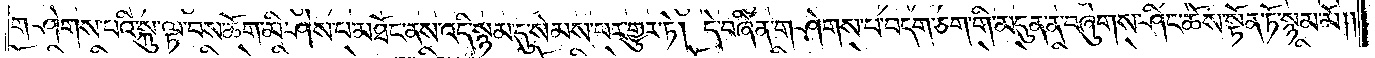གཤེགས་པའི་སྐུ་ལྟ་བས་ཆོག་མི་ཤེས་པ་མཐོང་ནས་འདི་སྙམ་དུ་སེམས་པར་གྱུར་ཏེ། དེ་བཞིན་གཤེགས་པ་བདག་ཅག་གི་མདུན་ན་བཞུགས་ཤིང་ཆོས་སྟོན་ཏོ་སྙམ་མོ༎
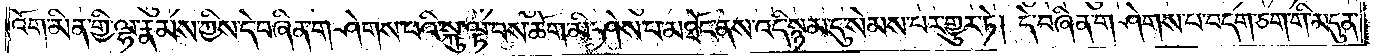འོག་མིན་གྱི་ལྷ་རྣམས་ཀྱིས་དེ་བཞིན་གཤེགས་པའི་སྐུ་ལྟ་བས་ཆོག་མི་ཤེས་པ་མཐོང་ནས་འདི་སྙམ་དུ་སེམས་པར་གྱུར་ཏེ། དེ་བཞིན་གཤེགས་པ་བདག་ཅག་གི་མདུན་
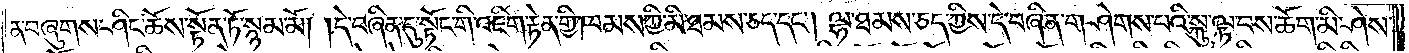ན་བཞུགས་ཤིང་ཆོས་སྟོན་ཏོ་སྙམ་མོ། །དེ་བཞིན་དུ་སྟོང་གི་འཇིག་རྟེན་གྱི་ཁམས་ཀྱི་མི་ཐམས་ཅད་དང༌། ལྷ་ཐམས་ཅད་ཀྱིས་དེ་བཞིན་གཤེགས་པའི་སྐུ་ལྟ་བས་ཆོག་མི་ཤེས་
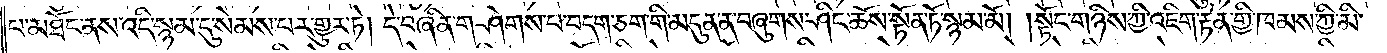པ་མཐོང་ནས་འདི་སྙམ་དུ་སེམས་པར་གྱུར་ཏེ། དེ་བཞིན་གཤེགས་པ་བདག་ཅག་གི་མདུན་ན་བཞུགས་ཤིང་ཆོས་སྟོན་ཏོ་སྙམ་མོ། །སྟོང་གཉིས་ཀྱི་འཇིག་རྟེན་གྱི་ཁམས་ཀྱི་མི་
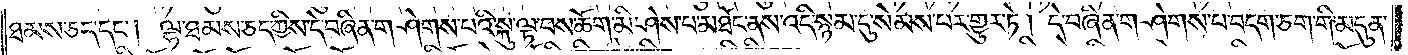ཐམས་ཅད་དང༌། ལྷ་ཐམས་ཅད་ཀྱིས་དེ་བཞིན་གཤེགས་པའི་སྐུ་ལྟ་བས་ཆོག་མི་ཤེས་པ་མཐོང་ནས་འདི་སྙམ་དུ་སེམས་པར་གྱུར་ཏེ། དེ་བཞིན་གཤེགས་པ་བདག་ཅག་གི་མདུན་
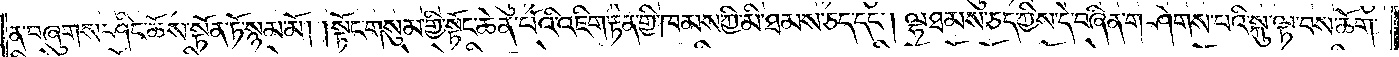ན་བཞུགས་ཤིང་ཆོས་སྟོན་ཏོ་སྙམ་མོ། །སྟོང་གསུམ་གྱི་སྟོང་ཆེན་པོའི་འཇིག་རྟེན་གྱི་ཁམས་ཀྱི་མི་ཐམས་ཅད་དང༌། ལྷ་ཐམས་ཅད་ཀྱིས་དེ་བཞིན་གཤེགས་པའི་སྐུ་ལྟ་བས་ཆོག་
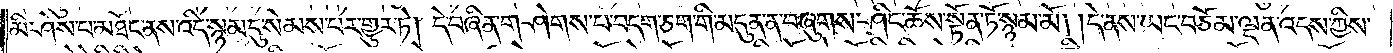མི་ཤེས་པ་མཐོང་ནས་འདི་སྙམ་དུ་སེམས་པར་གྱུར་ཏེ། དེ་བཞིན་གཤེགས་པ་བདག་ཅག་གི་མདུན་ན་བཞུགས་ཤིང་ཆོས་སྟོན་ཏོ་སྙམ་མོ། །དེ་ནས་ཡང་བཅོམ་ལྡན་འདས་ཀྱིས་
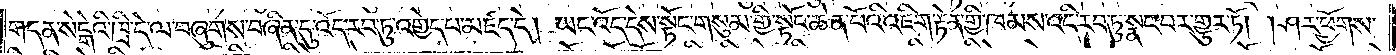གདན་སེངྒེའི་ཁྲི་དེ་ལ་བཞུགས་བཞིན་དུ་འོད་རབ་ཏུ་འགྱེད་པ་མཛད་དེ། ཡང་འོད་དེས་སྟོང་གསུམ་གྱི་སྟོང་ཆེན་པོའི་འཇིག་རྟེན་གྱི་ཁམས་འདི་རབ་ཏུ་སྣང་བར་གྱུར་ཏོ། །ཤར་ཕྱོགས་
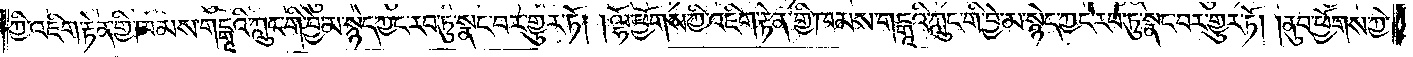ཀྱི་འཇིག་རྟེན་གྱི་ཁམས་གངྒཱའི་ཀླུང་གི་བྱེ་མ་སྙེད་ཀྱང་རབ་ཏུ་སྣང་བར་གྱུར་ཏོ། །ལྷོ་ཕྱོགས་ཀྱི་འཇིག་རྟེན་གྱི་ཁམས་གངྒཱའི་ཀླུང་གི་བྱེ་མ་སྙེད་ཀྱང་རབ་ཏུ་སྣང་བར་གྱུར་ཏོ། །ནུབ་ཕྱོགས་ཀྱི་
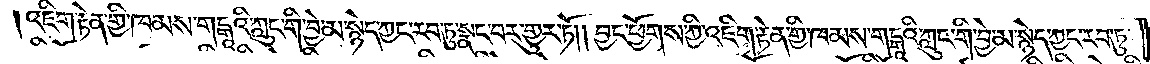འཇིག་རྟེན་གྱི་ཁམས་གངྒཱའི་ཀླུང་གི་བྱེ་མ་སྙེད་ཀྱང་རབ་ཏུ་སྣང་བར་གྱུར་ཏོ༎ བྱང་ཕྱོགས་ཀྱི་འཇིག་རྟེན་གྱི་ཁམས་གངྒཱའི་ཀླུང་གི་བྱེ་མ་སྙེད་ཀྱང་རབ་ཏུ་
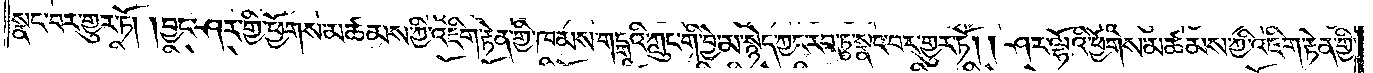སྣང་བར་གྱུར་རོ། །བྱང་ཤར་གྱི་ཕྱོགས་མཚམས་ཀྱི་འཇིག་རྟེན་གྱི་ཁམས་གངྒཱའི་ཀླུང་གི་བྱེ་མ་སྙེད་ཀྱང་རབ་ཏུ་སྣང་བར་གྱུར་ཏོ། །ཤར་ལྷོའི་ཕྱོགས་མཚམས་ཀྱི་འཇིག་རྟེན་གྱི་
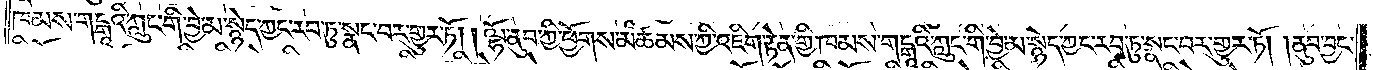ཁམས་གངྒཱའི་ཀླུང་གི་བྱེ་མ་སྙེད་ཀྱང་རབ་ཏུ་སྣང་བར་གྱུར་ཏོ། །ལྷོ་ནུབ་ཀྱི་ཕྱོགས་མཚམས་ཀྱི་འཇིག་རྟེན་གྱི་ཁམས་གངྒཱའི་ཀླུང་གི་བྱེ་མ་སྙེད་ཀྱང་རབ་ཏུ་སྣང་བར་གྱུར་ཏོ། །ནུབ་བྱང་
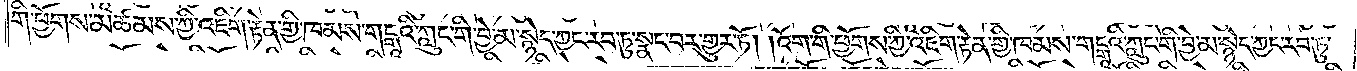གི་ཕྱོགས་མཚམས་ཀྱི་འཇིག་རྟེན་གྱི་ཁམས་གངྒཱའི་ཀླུང་གི་བྱེ་མ་སྙེད་ཀྱང་རབ་ཏུ་སྣང་བར་གྱུར་ཏོ། །འོག་གི་ཕྱོགས་ཀྱི་འཇིག་རྟེན་གྱི་ཁམས་གངྒཱའི་ཀླུང་གི་བྱེ་མ་སྙེད་ཀྱང་རབ་ཏུ་
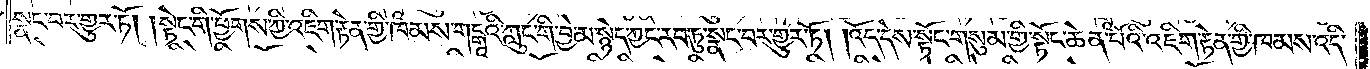སྣང་བར་གྱུར་ཏོ། །སྟེང་གི་ཕྱོགས་ཀྱི་འཇིག་རྟེན་གྱི་ཁམས་གངྒཱའི་ཀླུང་གི་བྱེ་མ་སྙེད་ཀྱང་རབ་ཏུ་སྣང་བར་གྱུར་ཏོ། །འོད་དེས་སྟོང་གསུམ་གྱི་སྟོང་ཆེན་པོའི་འཇིག་རྟེན་གྱི་ཁམས་འདི་
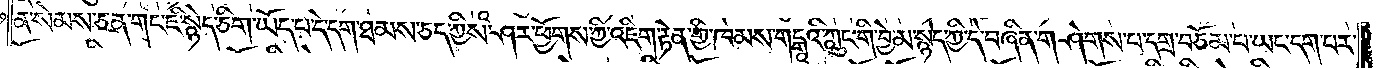ན་སེམས་ཅན་གང་ཇི་སྙེད་ཅིག་ཡོད་པ་དེ་དག་ཐམས་ཅད་ཀྱིས་ཤར་ཕྱོགས་ཀྱི་འཇིག་རྟེན་གྱི་ཁམས་གངྒཱའི་ཀླུང་གི་བྱེ་མ་སྙེད་ཀྱི་དེ་བཞིན་གཤེགས་པ་དགྲ་བཅོམ་པ་ཡང་དག་པར་
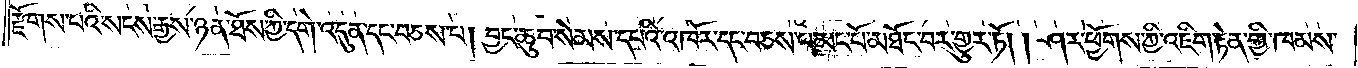རྫོགས་པའི་སངས་རྒྱས་ཉན་ཐོས་ཀྱི་དགེ་འདུན་དང་བཅས་པ། བྱང་ཆུབ་སེམས་དཔའི་འཁོར་དང་བཅས་པ་མང་པོ་མཐོང་བར་གྱུར་ཏོ། །ཤར་ཕྱོགས་ཀྱི་འཇིག་རྟེན་གྱི་ཁམས་
